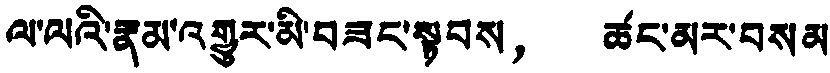ལ་ལའི་རྣམ་འགྱུར་མི་བཟང་སྟབས， ཚང་མར་བསམ
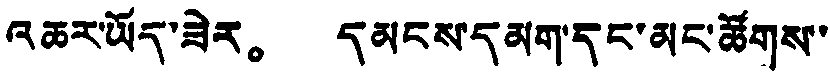འཆར་ཡོད་ཟེར。 དམངས་དམག་དང་མང་ཚོགས་་
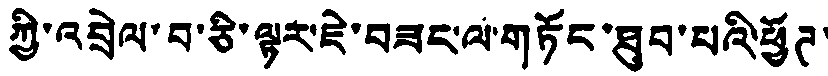ཀྱི་འབྲེལ་བ་ཅི་ལྟར་ཇེ་བཟང་ལ་གཏོང་ཐུབ་པའི་ཕྱོཊ་
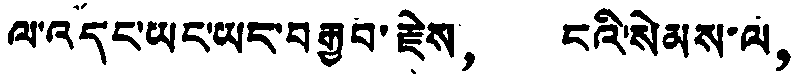ལ་འདང་ཡང་ཡང་བརྒྱབ་རྗེས， ངའི་སེམས་ལ，
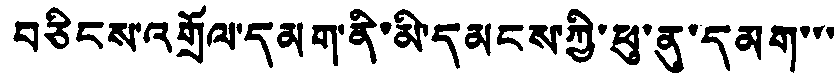བཅིངས་འགྲོལ་དམག་ནི་མི་དམངས་ཀྱི་ཕུ་ནུ་དམག་་་
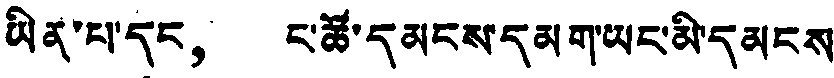ཡིན་པ་དང， ང་ཚོ་དམངས་དམག་ཡང་མི་དམངས
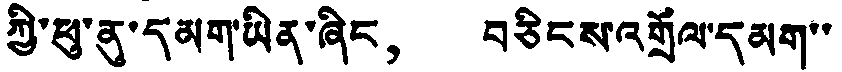ཀྱི་ཕུ་ནུ་དམག་ཡིན་ཞིང， བཅིངས་འགྲོལ་དམག་་
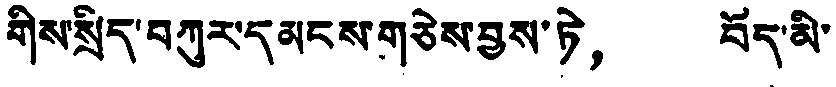གིས་སྲིད་བཀུར་དམངས་གཅེས་བྱས་ཏེ， བོད་མི་
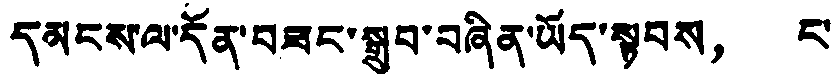དམངས་ལ་དོན་བཟང་སྒྲུབ་བཞིན་ཡོད་སྟབས， ང་
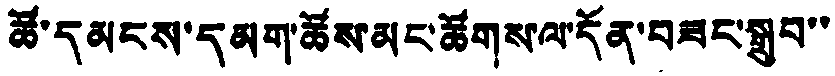ཚོ་དམངས་དམག་ཚོས་མང་ཚོགས་ལ་དོན་བཟང་སྒྲུབ་་
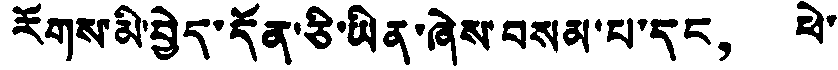རོགས་མི་བྱེད་དོན་ཅི་ཡིན་ཞེས་བསམ་པ་དང， ཕེ་
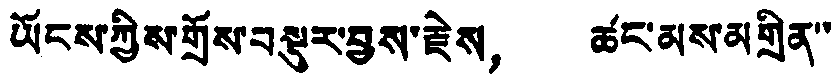ཡོངས་ཀྱིས་གྲོས་བསྡུར་བྱས་རྗེས， ཚང་མས་མགྲིན་་
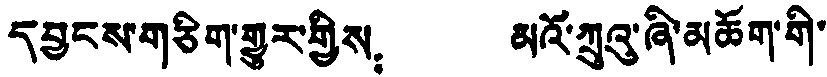དབྱངས་གཅིག་གྱུར་གྱིས： མའོ་ཀྲུའུ་ཞི་མཆོག་གི་
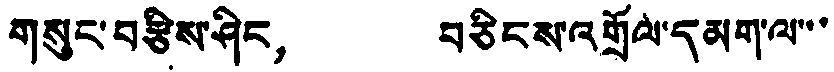གསུང་བརྩིས་ཤིང， བཅིངས་འགྲོལ་དམག་ལ་་་
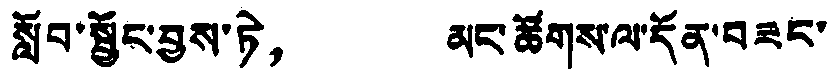སློབ་སྦྱོང་བྱས་ཏེ， མང་ཚོགས་ལ་དོན་བཟང་
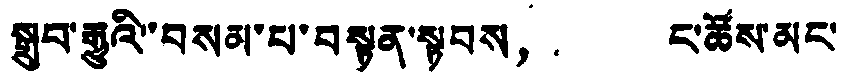སྒྲུབ་རྒྱུའི་བསམ་པ་བསྟན་སྟབས， ང་ཚོས་མང་
